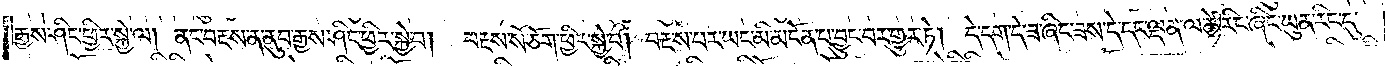རྒྱས་ཤིང་ཕྱིར་སྐྱེ་ལ། ནང་བརྔས་ན་ནུབ་རྒྱས་ཤིང་ཕྱིར་སྐྱེ་བ། བརྔས་སོ་ཅོག་ཕྱིར་སྐྱེ་བ། བརྔས་པར་ཡང་མི་མངོན་པ་བྱུང་བར་གྱུར་ཏེ། དེ་དག་དེ་ཟ་ཞིང་ཟས་དེ་དང་ལྡན་ལ་ཚེ་རིང་ཞིང་ཡུན་རིང་དུ་
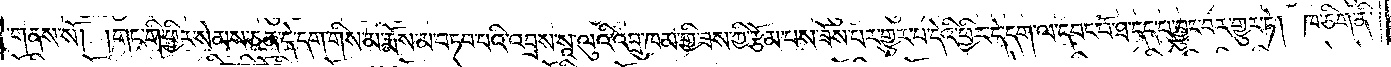གནས་སོ། །གང་གི་ཕྱིར་སེམས་ཅན་དེ་དག་གིས་མ་རྨོས་མ་བཏབ་པའི་འབྲས་སཱ་ལུའི་འབྲུ་ཁམ་གྱི་ཟས་ཀྱི་རྩོམ་པས་ཟོས་པར་གྱུར་པ་དེའི་ཕྱིར་དེ་དག་ལ་དབང་པོ་ཐ་དད་པ་བྱུང་བར་གྱུར་ཏེ། ཁ་ཅིག་ནི་
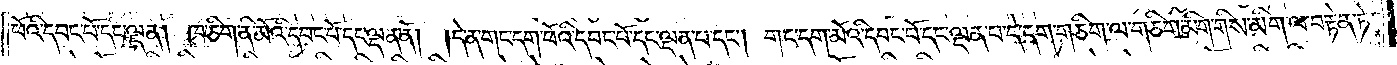ཕོའི་དབང་པོ་དང་ལྡན། ཁ་ཅིག་ནི་མོའི་དབང་པོ་དང་ལྡན་ནོ། །དེ་ན་གང་དག་ཕོའི་དབང་པོ་དང་ལྡན་པ་དང༌། གང་དག་མེའི་དབང་པོ་དང་ལྡན་པ་དེ་དག་གཅིག་ལ་གཅིག་མིག་གིས་མིག་ལ་བརྟེན་ཏེ་
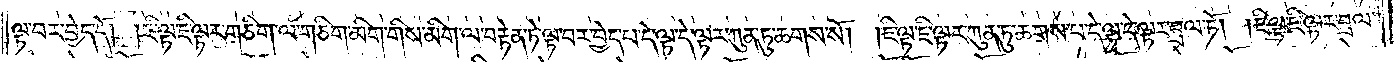ལྟ་བར་བྱེད་དོ། །ཇི་ལྟ་ཇི་ལྟར་གཅིག་ལ་གཅིག་མིག་གིས་མིག་ལ་བརྟེན་ཏེ་ལྟ་བར་བྱེད་པ་དེ་ལྟ་དེ་ལྟར་ཀུན་ཏུ་ཆགས་སོ། །ཇི་ལྟ་ཇི་ལྟར་ཀུན་ཏུ་ཆགས་པ་དེ་ལྟ་དེ་ལྟར་བྲལ་ཏོ། །ཇི་ལྟ་ཇི་ལྟར་བྲལ་
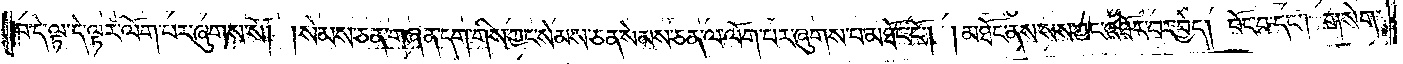བ་དེ་ལྟ་དེ་ལྟར་ལོག་པར་ཞུགས་སོ། །སེམས་ཅན་གཞན་དག་གིས་ཀྱང་སེམས་ཅན་སེམས་ཅན་ལ་ལོག་པར་ཞུགས་པ་མཐོང་ངོ༌། །མཐོང་ནས་སས་ཀྱང་འཐོར་བར་བྱེད། བོང་བ་དང༌། གསེག་
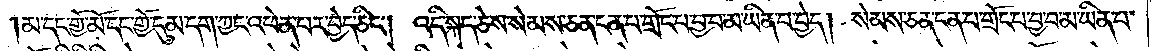མ་དང་གྱོ་མོ་དང་གྱོ་དུམ་དག་ཀྱང་འཕེན་པར་བྱེད་ཅིང༌། འདི་སྐད་ཅེས་སེམས་ཅན་ངན་བ་གྲོང་བ་བྱ་བ་མ་ཡིན་པ་བྱེད། སེམས་ཅན་ངན་པ་གྲོང་པ་བྱ་བ་མ་ཡིན་པ་
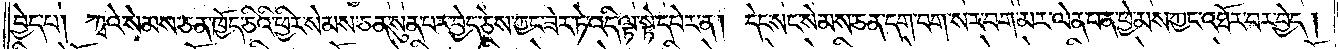བྱེད་པ། ཀྭའེ་སེམས་ཅན་ཁྱོད་ཅིའི་ཕྱིར་སེམས་ཅན་སུན་པར་བྱེད་ཅེས་ཀྱང་ཟེར་ཏེ་འདི་ལྟ་སྟེ་དཔེར་ན། དེང་སང་སེམས་ཅན་དག་བག་སར་བག་མར་ལེན་པ་ན་ཕྱེ་མས་ཀྱང་འཐོར་བར་བྱེད་།
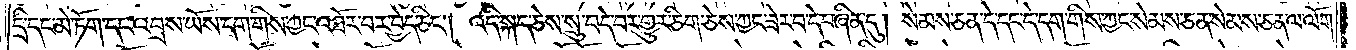དྲི་དང་མེ་ཏོག་དང་འབྲས་ཡོས་དག་གིས་ཀྱང་འཐོར་བར་བྱེད་ཅིང༌། འདི་སྐད་ཅེས་སྲུ་བདེ་བར་གྱུར་ཅིག་ཅེས་ཀྱང་ཟེར་བ་དེ་བཞིན་དུ། སེམས་ཅན་དེ་དང་དེ་དག་གིས་ཀྱང་སེམས་ཅན་སེམས་ཅན་ལ་ལོག་
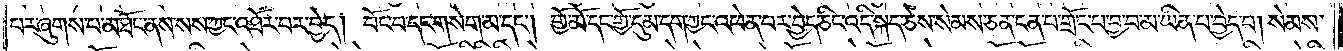པར་ཞུགས་པ་མཐོང་ནས་སས་ཀྱང་འཐོར་བར་བྱེད། བོང་བ་དང་གསེག་མ་དང༌། གྱོ་མོ་དང་གྱོ་དུམ་དག་ཀྱང་འཕེན་པར་བྱེད་ཅིང་འདི་སྐད་ཅེས་སེམས་ཅན་ངན་པ་གྲོང་པ་བྱ་བ་མ་ཡིན་པ་བྱེད་པ། སེམས་
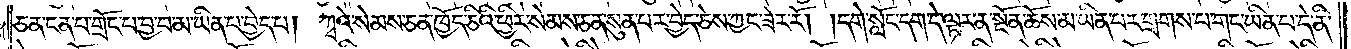ཅན་ངན་པ་གྲོང་པ་བྱ་བ་མ་ཡིན་པ་བྱེད་པ། ཀྭའི་སེམས་ཅན་ཁྱོད་ཅིའི་ཕྱིར་སེམས་ཅན་སུན་པར་བྱེད་ཅེས་ཀྱང་ཟེར་རོ། །དགེ་སློང་དག་དེ་ལྟར་ན་སྔོན་ཆོས་མ་ཡིན་པར་གྲགས་པ་གང་ཡིན་པ་དེ་ནི་
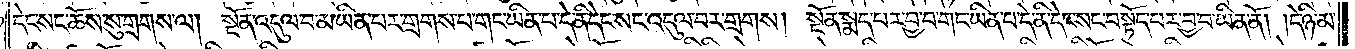དེང་སང་ཆོས་སུ་གྲགས་ལ། སྔོན་འདུལ་བ་མ་ཡིན་པར་གྲགས་པ་གང་ཡིན་པ་དེ་ནི་དེང་སང་འདུལ་བར་གྲགས། སྔོན་སྨད་པར་བྱ་བ་གང་ཡིན་པ་དེ་ནི་དེང་སང་བསྟོད་པར་བྱ་བ་ཡིན་ནོ། །དེ་ཉི་མ་
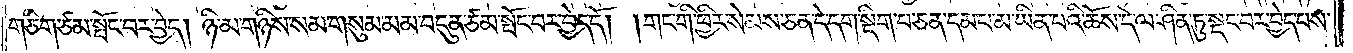གཅིག་ཙམ་སྤོང་བར་བྱེད། ཉི་མ་གཉིས་སམ་གསུམ་མམ་བདུན་ཙམ་སྤོང་བར་བྱེད་དོ། །གང་གི་ཕྱིར་སེམས་ཅན་དེ་དག་སྡིག་པ་ཅན་དམ་པ་མ་ཡིན་པའི་ཆོས་དེ་ལ་ཤིན་ཏུ་སྡང་བར་བྱེད་པས་
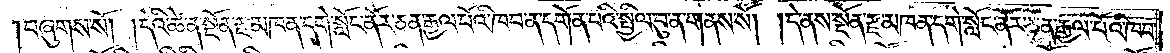བཞུགས་སོ། །དེའི་ཚེ་ན་སྔོན་རྫ་མཁན་དགེ་སློང་ནོར་ཅན་རྒྱལ་པོའི་ཁབ་ན་དགོན་པའི་སྤྱིལ་བུ་ན་གནས་སོ། །དེ་ནས་སྔོན་རྫ་མཁན་དགེ་སློང་ནོར་ཅན་རྒྱལ་པོའི་ཁབ་
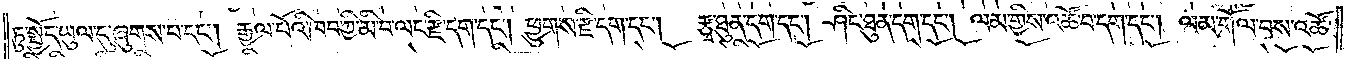ཏུ་སྤྱོད་ཡུལ་དུ་ཞུགས་པ་དང༌། རྒྱལ་པོའི་ཁབ་ཀྱི་མི་བ་ལང་རྫི་དག་དང༌། ཕྱུགས་རྫི་དག་དང༌།   རྩྭ་ཐུན་དག་དང༌། ཤིང་ཐུན་དག་དང༌། ལམ་གྱིས་འཚོ་བ་དག་དང༌། ལམ་གོལ་བས་འཚོ་
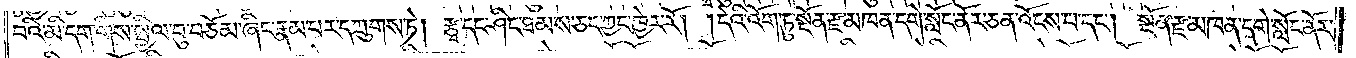བའི་མི་དག་གིས་སྤྱིལ་བུ་བཅོམ་ཞིང་རྣམ་པར་དཀྲུགས་ཏེ། རྩྭ་དང་ཤིང་ཐམས་ཅད་ཀྱང་ཁྱེར་རོ། །དེའི་འོག་ཏུ་སྔོན་རྫ་མཁན་དགེ་སློང་ནོར་ཅན་འོངས་པ་དང༌། སྔོན་རྫ་མཁན་དགེ་སློང་ནོར་
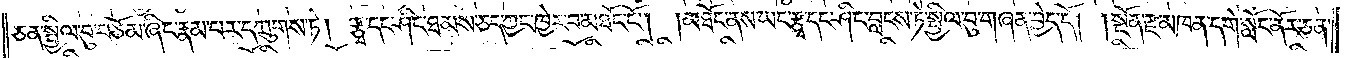ཅན་སྤྱིལ་བུ་བཅོམ་ཞིང་རྣམ་པར་དཀྲུགས་ཏེ། རྩྭ་དང་ཤིང་ཐམས་ཅད་ཀྱང་ཁྱེར་བ་མཐོང་ངོ༌། །མཐོང་ནས་ཡང་རྩྭ་དང་ཤིང་བླངས་ཏེ་སྤྱིལ་བུ་གཞན་བྱེད་དོ། །སྔོན་རྫ་མཁན་དགེ་སློང་ནོར་ཅན་
